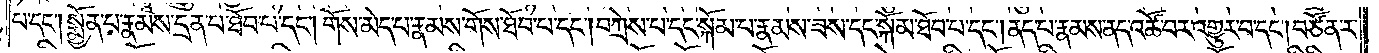པ་དང༌། སྨྱོན་པ་རྣམས་དྲན་པ་ཐོབ་པ་དང༌། གོས་མེད་པ་རྣམས་གོས་ཐོབ་པ་དང༌། བཀྲེས་པ་དང་སྐོམ་པ་རྣམས་ཟས་དང་སྐོམ་ཐོབ་པ་དང༌། ནད་པ་རྣམས་ནད་འཚོ་བར་འགྱུར་བ་དང༌། བཙོན་ར་
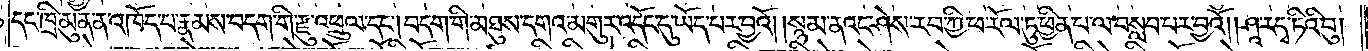དང་ཁྲི་མུན་ན་འཁོད་པ་རྣམས་བདག་གི་རྫུ་འཕྲུལ་དང༌། བདག་གི་མཐུས་དགའ་མགུར་འདོང་དུ་ཡོད་པར་བྱའོ། །སྙམ་ནའང་ཤེས་རབ་ཀྱི་ཕ་རོལ་ཏུ་ཕྱིན་པ་ལ་བསླབ་པར་བྱའོ། །ཤཱ་རདྭ་ཏིའི་བུ།
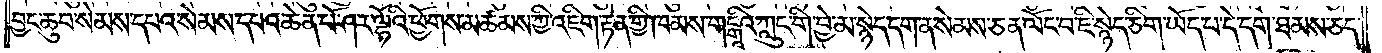བྱང་ཆུབ་སེམས་དཔའ་སེམས་དཔའ་ཆེན་པོ་ཤར་ལྷོའི་ཕྱོགས་མཚམས་ཀྱི་འཇིག་རྟེན་གྱི་ཁམས་གངྒཱའི་ཀླུང་གི་བྱེ་མ་སྙེད་དག་ན་སེམས་ཅན་ལོང་བ་ཇི་སྙེད་ཅིག་ཡོད་པ་དེ་དག་ཐམས་ཅད་
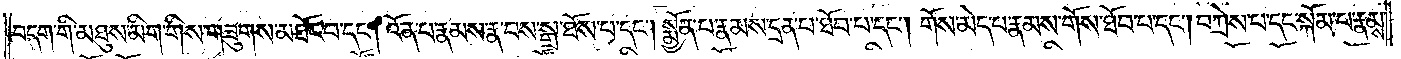བདག་གི་མཐུས་མིག་གིས་གཟུགས་མཐོང་བ་དང༌། འོན་པ་རྣམས་རྣ་བས་སྒྲ་ཐོས་པ་དང༌། སྨྱོན་པ་རྣམས་དྲན་པ་ཐོབ་པ་དང༌། གོས་མེད་པ་རྣམས་གོས་ཐོབ་པ་དང༌། བཀྲེས་པ་དང་སྐོམ་པ་རྣམས་
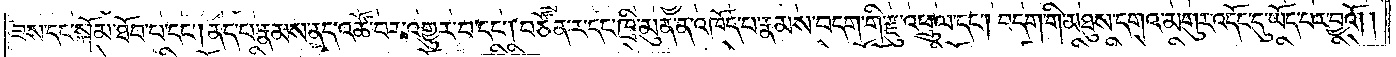ཟས་དང་སྐོམ་ཐོབ་པ་དང༌། ནད་པ་རྣམས་ནད་འཚོ་བར་འགྱུར་བ་དང༌། བཙོན་ར་དང་ཁྲི་མུན་ན་འཁོད་པ་རྣམས་བདག་གི་རྫུ་འཕྲུལ་དང༌། བདག་གི་མཐུས་དགའ་མགུར་འདོང་དུ་ཡོད་པར་བྱའོ༎
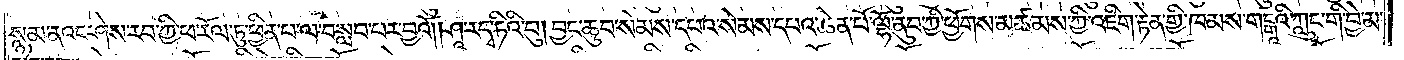སྙམ་ནའང་ཤེས་རབ་ཀྱི་ཕ་རོལ་ཏུ་ཕྱིན་པ་ལ་བསླབ་པར་བྱའོ། །ཤཱ་ར་དྭ་ཏིའི་བུ། བྱང་ཆུབ་སེམས་དཔའ་སེམས་དཔའ་ཆེན་པོ་ལྷོ་ནུབ་ཀྱི་ཕྱོགས་མཚམས་ཀྱི་འཇིག་རྟེན་གྱི་ཁམས་གངྒཱའི་ཀླུང་གི་བྱེ་མ་
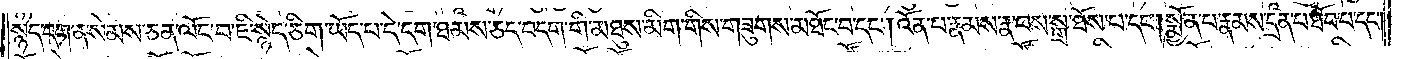སྙེད་དག་ན་སེམས་ཅན་ལོང་བ་ཇི་སྙེད་ཅིག་ཡོད་པ་དེ་དག་ཐམས་ཅད་བདག་གི་མཐུས་མིག་གིས་གཟུགས་མཐོང་བ་དང༌། འོན་པ་རྣམས་རྣ་བས་སྒྲ་ཐོས་པ་དང༌། སྨྱོན་པ་རྣམས་དྲན་པ་ཐོབ་པ་དང༌།
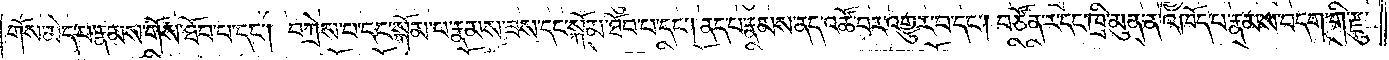གོས་མེད་པ་རྣམས་གོས་ཐོབ་པ་དང༌། བཀྲེས་པ་དང་སྐོམ་པ་རྣམས་ཟས་དང་སྐོམ་ཐོབ་པ་དང༌། ནད་པ་རྣམས་ནད་འཚོ་བར་འགྱུར་བ་དང༌། བཙོན་ར་དང་ཁྲི་མུན་ན་འཁོད་པ་རྣམས་བདག་གི་རྫུ་
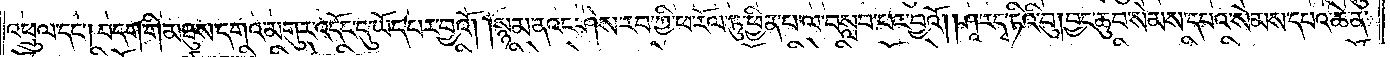འཕྲུལ་དང༌། བདག་གི་མཐུས་དགའ་མགུར་འདོང་དུ་ཡོད་པར་བྱའོ། །སྙམ་ནའང་ཤེས་རབ་ཀྱི་ཕ་རོལ་ཏུ་ཕྱིན་པ་ལ་བསླབ་པར་བྱའོ། །ཤཱ་ར་དྭ་ཏིའི་བུ། བྱང་ཆུབ་སེམས་དཔའ་སེམས་དཔའ་ཆེན་
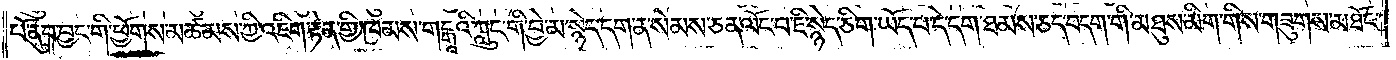པོ་ནུབ་བྱང་གི་ཕྱོགས་མཚམས་ཀྱི་འཇིག་རྟེན་གྱི་ཁམས་གངྒཱའི་ཀླུང་གི་བྱེ་མ་སྙེད་དག་ན་སེམས་ཅན་ལོང་བ་ཇི་སྙེད་ཅིག་ཡོད་པ་དེ་དག་ཐམས་ཅད་བདག་གི་མཐུས་མིག་གིས་གཟུགས་མཐོང་
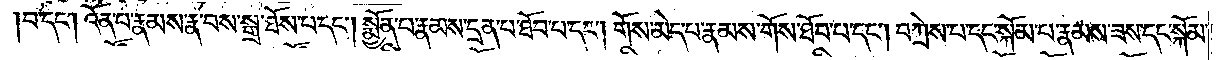བ་དང༌། འོན་པ་རྣམས་རྣ་བས་སྒྲ་ཐོས་པ་དང༌། སྨྱོན་པ་རྣམས་དྲན་པ་ཐོབ་པ་དང༌། གོས་མེད་པ་རྣམས་གོས་ཐོབ་པ་དང༌། བཀྲེས་པ་དང་སྐོམ་པ་རྣམས་ཟས་དང་སྐོམ་
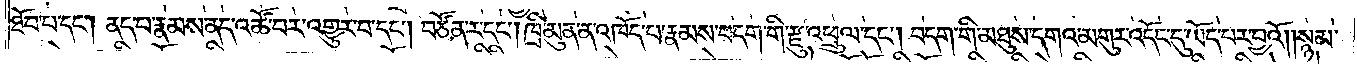ཐོབ་པ་དང༌། ནད་པ་རྣམས་ནད་འཚོ་བར་འགྱུར་བ་དང༌། བཙོན་ར་དང༌། ཁྲི་མུན་ན་འཁོད་པ་རྣམས་བདག་གི་རྫུ་འཕྲུལ་དང༌། བདག་གི་མཐུས་དགའ་མགུར་འདོང་དུ་ཡོད་པར་བྱའོ། །སྙམ་
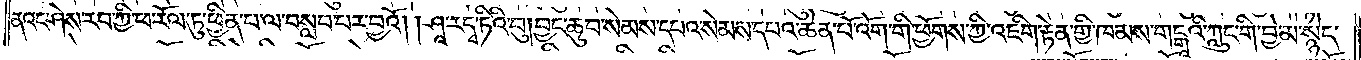ནའང་ཤེས་རབ་ཀྱི་ཕ་རོལ་ཏུ་ཕྱིན་པ་ལ་བསླབ་པར་བྱའོ། །ཤཱ་ར་དྭ་ཏིའི་བུ། བྱང་ཆུབ་སེམས་དཔའ་སེམས་དཔའ་ཆེན་པོ་འོག་གི་ཕྱོགས་ཀྱི་འཇིག་རྟེན་གྱི་ཁམས་གངྒཱའི་ཀླུང་གི་བྱེ་མ་སྙེད་
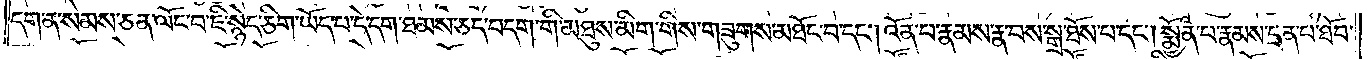དག་ན་སེམས་ཅན་ལོང་བ་ཇི་སྙེད་ཅིག་ཡོད་པ་དེ་དག་ཐམས་ཅད་བདག་གི་མཐུས་མིག་གིས་གཟུགས་མཐོང་བ་དང༌། འོན་པ་རྣམས་རྣ་བས་སྒྲ་ཐོས་པ་དང༌། སྨྱོན་པ་རྣམས་དྲན་པ་ཐོབ་
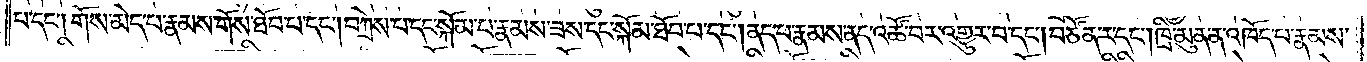པ་དང༌། གོས་མེད་པ་རྣམས་གོས་ཐོབ་པ་དང༌། བཀྲེས་པ་དང་སྐོམ་པ་རྣམས་ཟས་དང་སྐོམ་ཐོབ་པ་དང༌། ནད་པ་རྣམས་ནད་འཚོ་བར་འགྱུར་བ་དང༌། བཙོན་ར་དང༌། ཁྲི་མུན་ན་འཁོད་པ་རྣམས་
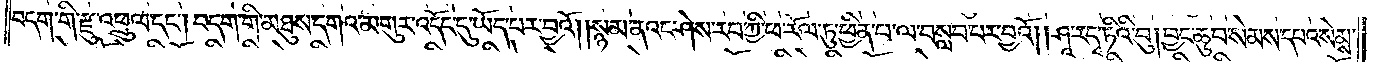བདག་གི་རྫུ་འཕྲུལ་དང༌། བདག་གི་མཐུས་དགའ་མགུར་འདོང་དུ་ཡོད་པར་བྱའོ། །སྙམ་ནའང་ཤེས་རབ་ཀྱི་ཕ་རོལ་ཏུ་ཕྱིན་པ་ལ་བསླབ་པར་བྱའོ། །ཤཱ་ར་དྭ་ཏིའི་བུ། བྱང་ཆུབ་སེམས་དཔའ་སེམས་
